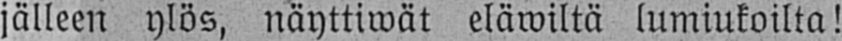jälleen ylös, näyttiwät eläwiltä lumiukoilta!
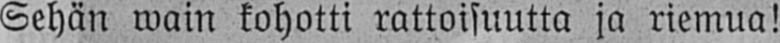Sehän wain kohotti rattoisuutta ja riemua!
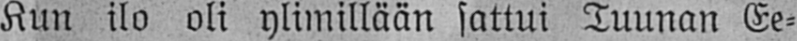Kun ilo oli ylimillään sattui Tuunan Ee-
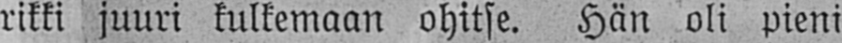rikki juuri kulkemaan ohitse. Hän oli pieni
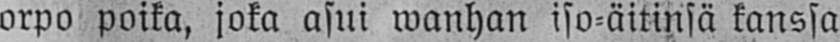orpo poika, joka asui wanhan iso-äitinsä kanssa
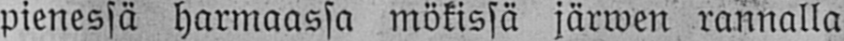pienessä harmaassa mökissä järwen rannalla
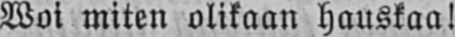Woi miten olikaan hauskaa!
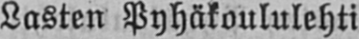Lasten Pyhäkoululehti
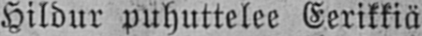Hildur puhuttelee Eerikkiä.
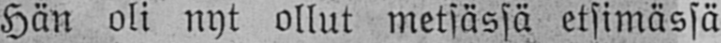Hän oli nyt ollut metsässä etsimässä
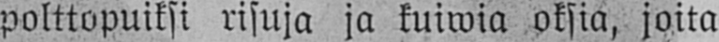polttopuiksi risuja ja kuiwia oksia, joita
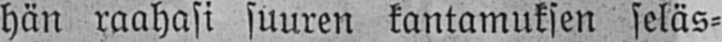hän raahasi suuren kantamuksen seläs-
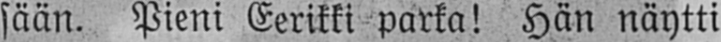sään. Pieni Eerikki parka! Hän näytti
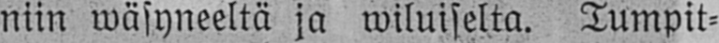niin wäsyneeltä ja wiluiselta. Tumpit-
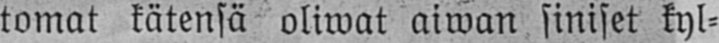tomat kätensä oliwat aiwan siniset kyl-
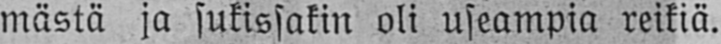mästä ja sukissakin oli useampia reikiä.
